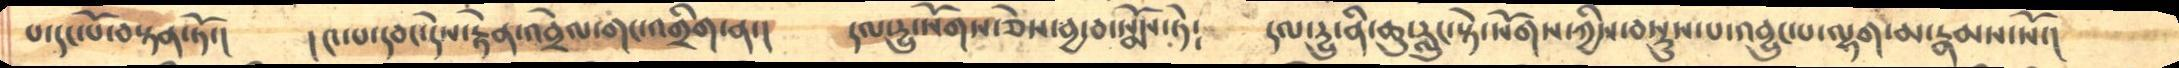པ་དང་པོ་བསྟན་ཏོ་།   །༤་པ་དབང་དེས་རྟེན་འབྲེལ་གང་འགྲིག་ན་།   དལ་དྱུ་སོགས་ཅེས་བྱ་བ་སྨོས་ཏེ༴   དལ་དྱུ་ནི་ཆུ་རླུང་སྟེ་སོགས་ཀྱིས་བསྡུས་པ་འབྱུང་པ་ལྷག་མ་རྣམས་སོ་།
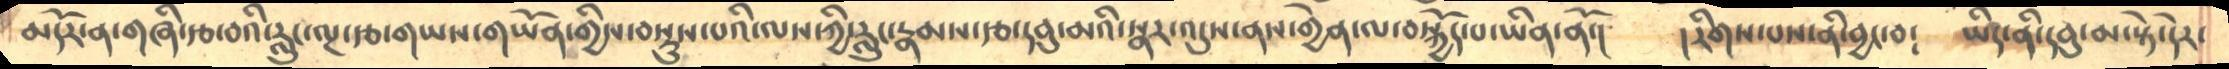མདོར་ན་གཞི་རྩ་བའི་རླུང་ལྔ་རྩ་གཡས་གཡོན་གྱིས་བསྡུས་པའི་ལས་ཀྱི་རླུང་རྣམས་རྩ་དབུ་མའི་སྣར་འདུས་ནས་གྱེན་ལ་བསྐྱོད་པ་ཡིན་ནོ་།    །རིགས་པས་ནི་བྱང་བ༴   ཡིད་ནི་དབུ་མ་སྟེ་དེར་
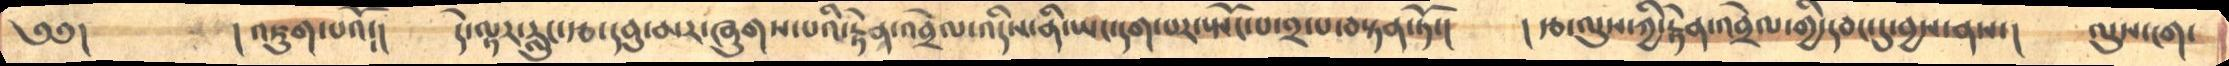༄༅།      ། འཇུག་པའོ༴།        དེ་ལྟར་རླུང་རྩ་དབུ་མར་ཞུགས་པའི་རྟེན་འབྲེལ་འདིས་ནི་ཡང་དག་པར་སྤོང་པ་༢་པ་བསྟན་ཏོ་།      ། རྩ་ལུས་ཀྱི་རྟེན་འབྲེལ་གྱི་དབང་དུ་བྱས་ནས་།   ལུས་ངག་
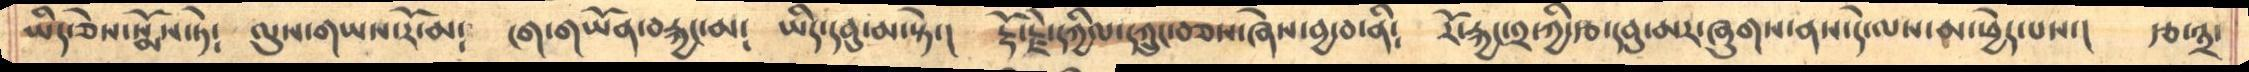ཡིད་ཅེས་སྨོས་ཏེ༴    ལུས་གཡས་རོ་མ༴    ངག་གཡོན་བརྐྱང་མ༴    ཡིད་དབུ་མ་སྟེ་།   རྡོ་རྗེ་དཀྱིལ་དཀྲུང་བཅས་ཞེས་བྱ་བ་ནི༴   རོ་རྐྱང་༢་ཀྱི་རྩ་དབུ་མར་ཞུགས་ནས་དེ་ལས་མ་ཕྱེད་པས་།   རྩ་༣་
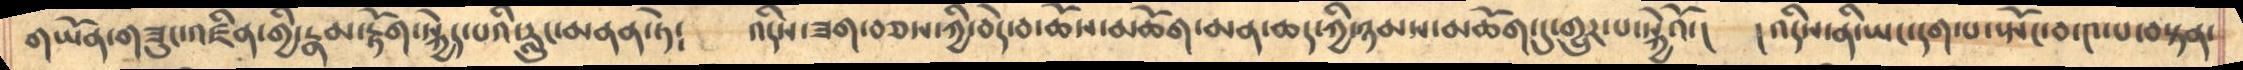གཡོན་གཟུང་འཛིན་གྱི་རྣམ་རྟོག་སྐྱེད་པའི་རླུང་མནན་ཏེ༴     འདིས་ཟག་བཅས་ཀྱི་བདེ་བ་ཆོས་མཆོག་མན་ཆད་ཀྱི་ཉམས་མཆོག་དུ་གྱུར་པ་སྐྱེའོ་།   །འདིས་ནི་ཡང་དག་པ་སྤོང་བ་༤་པ་བསྟན་
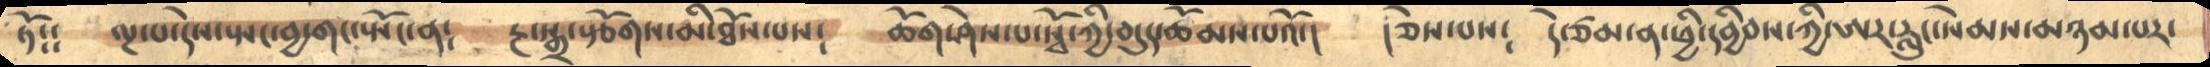ཏོ༴༴     ལྔ་པ་དེས་སྤང་བྱ་གང་སྤོང་ན༴    རྔ་སྒྲ་སྩོགས་མི་ཐོས་པས༴   ཆོག་ཤེས་པ་སྭོ་ཀྱི་བདུད་ཆོམས་པའོ་།    །ཅེས་པས༴   དེ་ཙམ་ན་ཕྱི་དབྱིབས་ཀྱི་ཨར་རླུང་སེམས་མཉམ་པར་
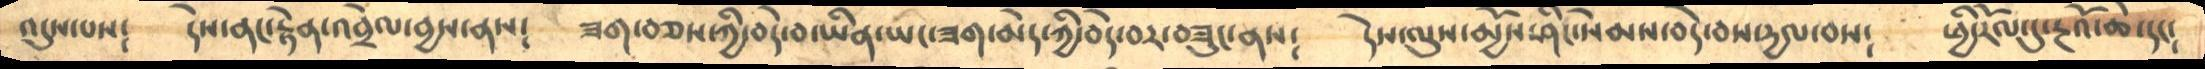འདུས་པས༴    དེས་ནང་རྟེན་འབྲེལ་བྱས་ནས༴   ཟག་བཅས་ཀྱི་བདེ་བ་ཡིན་ཡང་ཟག་མེད་ཀྱི་བདེ་བར་བཟུང་ནས༴   དེས་ལུས་མྱོས་ཤིང་སེམས་བདེ་བས་དྱལ་བས༴    ཕྱི་རོལ་དུ་རྔའོ་ཆེ་དང༴
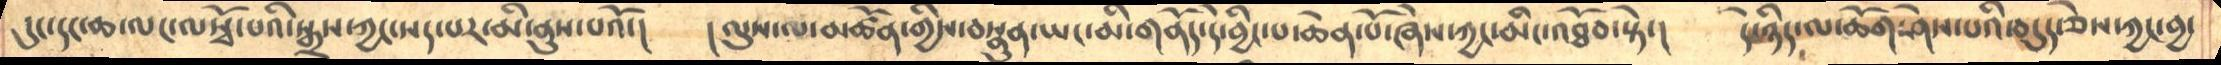དུང་དང་ཆ་ལང་ལསྭོ་པའི་སྒྲས་ཀྱང་སད་པར་མི་ནུས་པའོ་།    །ལུས་ལ་མཚོན་གྱིས་བསྣུན་ཡང་མི་གནོད་དེ་བྱིང་པ་ཆེན་པོ་ཞེས་ཀྱང་མིང་འཐོབ་སྟེ་།    དེ་ཉིད་ལ་ཆོག་ཤེས་པའི་བདུད་ཅེས་ཀྱང་བྱ་
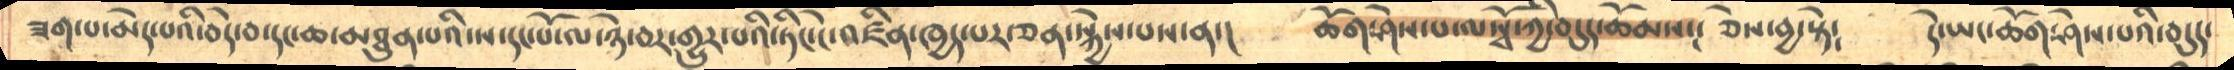ཟག་པ་མེད་པའི་བདེ་བ་དང་ཆ་མཐུན་པའི་ས་དང་པོ་ལ་ཉེ་བར་གྱུར་པའི་ཏིང་ངེ་འཛིན་ཁྱད་པར་ཅན་སྐྱེས་པས་ན་།    ཆོག་ཤེས་པ་ལསྭོ་ཀྱི་བདུད་ཆོམས་༴ ཅེས་བྱ་སྟེ༴    དེ་ཡང་ཆོག་ཤེས་པའི་བདུད་
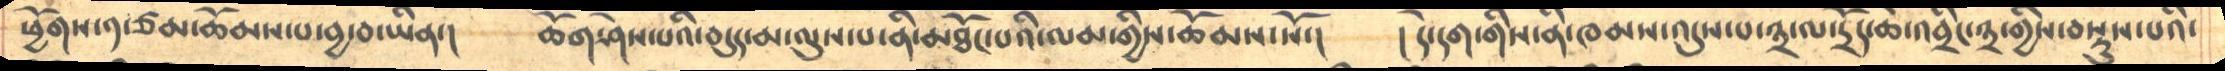ཕྱོགས་༡་ཙམ་ཆོམས་པ་བྱ་བ་ཡིན་།    ཆོག་ཤེས་པའི་བདུད་མ་ལུས་པ་ནི་མཐོང་པའི་ལམ་གྱིས་ཆོམས་སོ་།    ། དེ་དག་གིས་ནི་ཁམས་འདུས་པ་༣་ལ་དྲོད་ཆེ་འབྲིང་༣་གྱིས་བསྡུས་པའི་
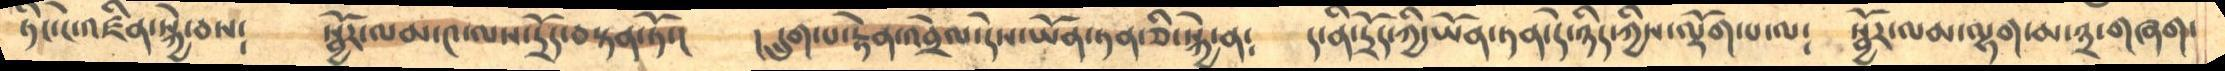ཏིང་ངེ་འཛིན་སྐྱེ་བས༴     སྦྱོར་ལམ་༤་ལས་དྲོད་བསྟན་ནོ་།     ། དྲུག་པ་རྟེན་འབྲེལ་དེས་ཡོན་ཏན་ཅི་སྐྱེ་ན༴    ད་ནི་དྲོད་ཀྱི་ཡོན་ཏན་དེ་ཉིད་ཀྱིས་ལྡོག་པ་ལ༴   སྦྱོར་ལམ་ལྷག་མ་༣་གཞག་
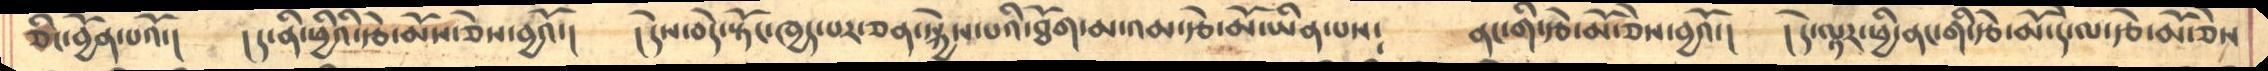ཅིང་བྱོན་པའོ་།     །ད་ནི་ཕྱིའི་རྩེ་མོས་ཅེས་བྱའོ་།     །དེས་བདེ་སྟོང་ཁྱད་པར་ཅན་སྐྱེས་པའི་ཐོག་མ་འམ་རྩེ་མོ་ཡིན་པས༴    ནང་གི་རྩེ་མོ་ཅེས་བྱའོ་།   ། དེ་ལྟར་ཕྱི་ནང་གི་རྩེ་མོ་དེ་ལ་རྩེ་མོ་ཅེས
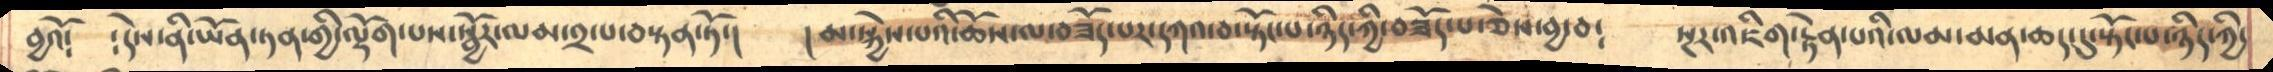བྱའོ༴      ༴དེས་ནི་ཡོན་ཏན་གྱི་ལྡོག་པས་སྦྱོར་ལམ་༢་པ་བསྟན་ཏོ་།     །མ་སྐྱེས་པའི་ཆོས་ལ་བཟོད་པར་དཀའ་བ་སྟོང་པ་ཉིད་ཀྱི་བཟོད་པ་ཅེས་བྱ་བ༴   སྔར་འཇིག་རྟེན་པའི་ལམ་མན་ཆད་དུ་སྟོང་པ་ཉིད་ཀྱི་
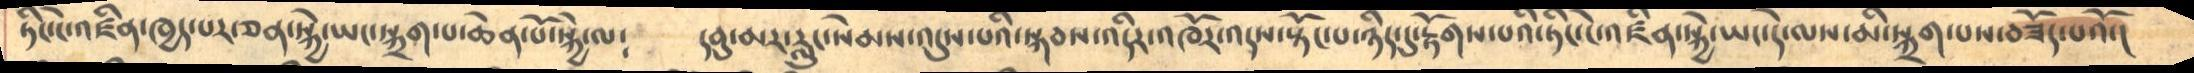ཏིང་ངེ་འཛིན་ཁྱད་པར་ཅན་སྐྱེ་ཡང་སྐྲག་ཆེན་པོ་སྐྱེ་ལ༴     དབུ་མར་རླུང་སེམས་འདུས་པའི་སྐབས་འདིར་འཁོར་འདས་སྟོང་པ་ཉིད་དུ་རྟོགས་པའི་ཏིང་ངེ་འཛིན་སྐྱེ་ཡང་དེ་ལས་མི་སྐྲག་པས་བཟོད་པའོ་།
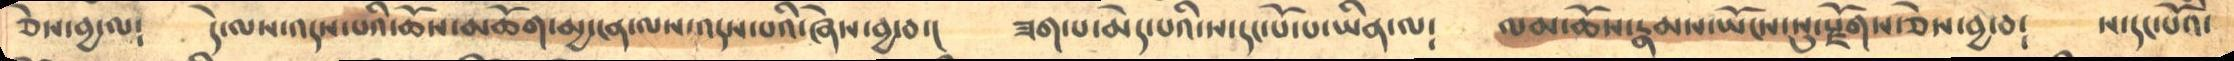ཅེས་བྱ་ལ༴    དེ་ལས་འདས་པའི་ཆོས་མཆོག་མྱ་ངན་ལས་འདས་པའི་ཞེས་བྱ་བ་།     ཟག་པ་མེད་པའི་ས་དང་པོ་པ་ཡིན་ལ༴   ལམ་ཆོས་རྣམས་ཡོངས་སུ་རྫོགས་ཅེས་བྱ་བ༴    ས་དང་པོའི་
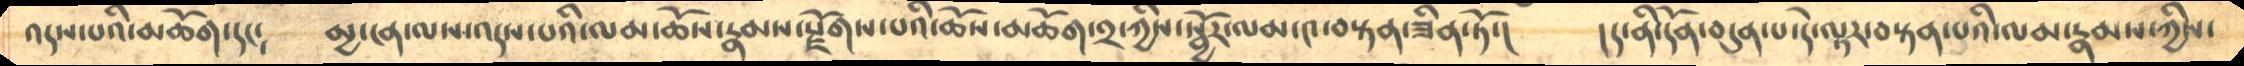འདས་པའི་མཆོག་དང༴      མྱ་ངན་ལས་འདས་པའི་ལམ་ཆོས་རྣམས་རྫོགས་པའི་ཆོས་མཆོག་༢་ཀྱིས་སྦྱོར་ལམ་༤་བསྟན་ཟིན་ཏོ་།    །ད་ནི་དོན་བདུན་པ་དེ་ལྟར་བསྟན་པའི་ལམ་རྣམས་ཀྱིས་
